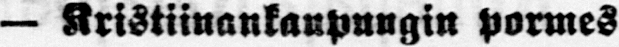—Kristiinankaupungin pormes-
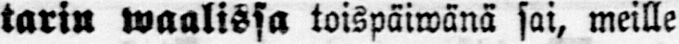tarin waalissa toispäiwänä sai, meille
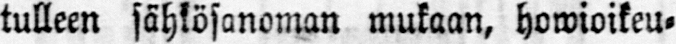tulleen sähkösanoman mukaan, howioikeu-
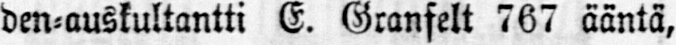den-auskultantti E. Granfelt 767 ääntä,
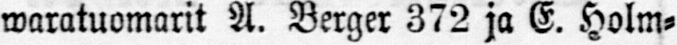waratuomarit A. Berger 372 ja E. Holm-
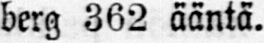berg 362 ääntä.
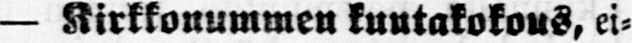— Kirkkonummen kuntakokous, ei-
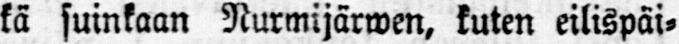kä suinkaan Nurmijärwen, kuten eilispäi-
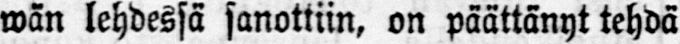wän lehdessä sanottiin, on päättänyt tehdä
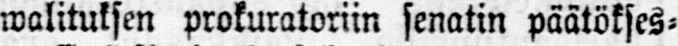walituksen prokuratoriin senatin päätökses-
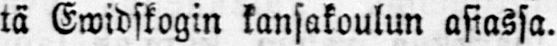tä Ewidskogin kansakoulun asiassa.
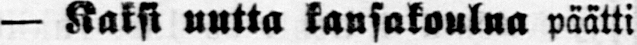— Kaksi uutta kansakoulua päätti
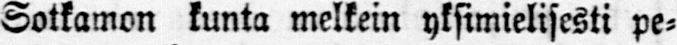Sotkamon kunta melkein yksimielisesti pe-
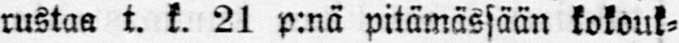rustaa t. k. 21 p:nä pitämässään kokouk-
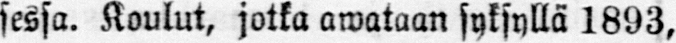sessa. Koulut, jotka awataan syksyllä 1893,
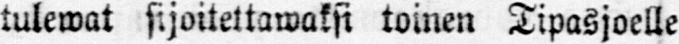tulewat sijoiteltawaksi toinen Tipasjoelle
